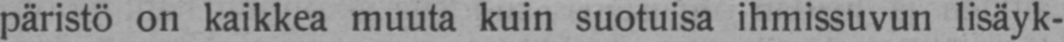päristö on kaikkea muuta kuin suotuisa ihmissuvun lisäyk-
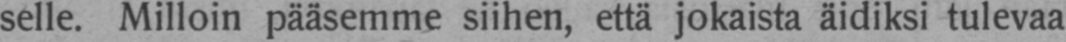selle. Milloin pääsemme siihen, että jokaista äidiksi tulevaa
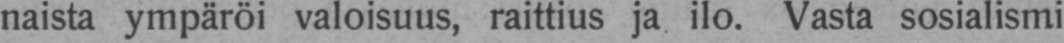naista ympäröi valoisuus, raittius ja ilo. Vasta sosialismi
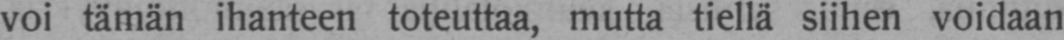voi tämän ihanteen toteuttaa, mutta tiellä siihen voidaan
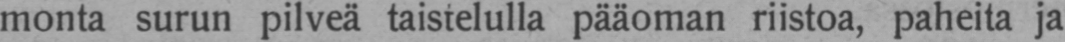monta surun pilveä taistelulla pääoman riistoa, paheita ja
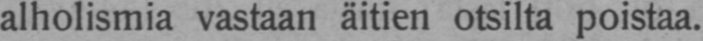alholismia vastaan äitien otsilta poistaa.
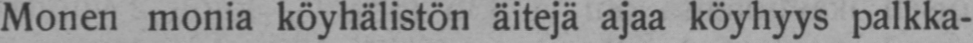Monen monia köyhälistön äitejä ajaa köyhyys palkka-
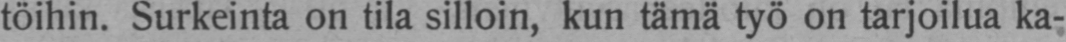töihin. Surkeinta on tila silloin, kun tämä työ on tarjoilua ka-
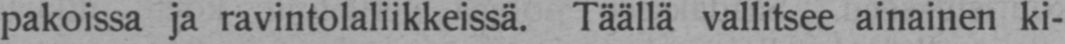pakoissa ja ravintolaliikkeissä. Täällä vallitsee ainainen ki-
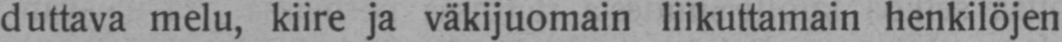duttava melu, kiire ja väkijuomain liikuttamain henkilöjen
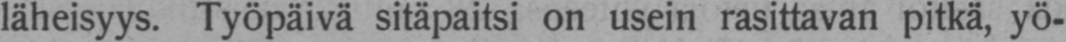läheisyys. Työpäivä sitäpaitsi on usein rasittavan pitkä, yö-
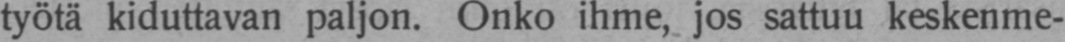työtä kiduttavan paljon. Onko ihme, jos sattuu keskenme-
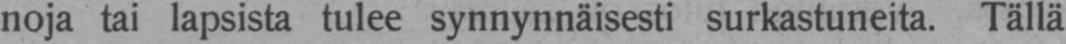noja tai lapsista tulee synnynnäisesti surkastuneita. Tällä
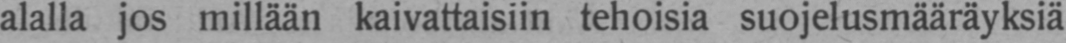alalla jos millään kaivattaisiin tehoisia suojelusmääräyksiä
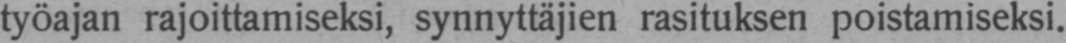työajan rajoittamiseksi, synnyttäjien rasituksen poistamiseksi,
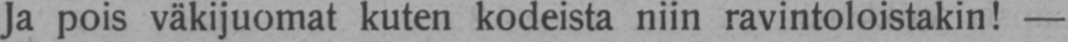ja pois väkijuomat kuten kodeista niin ravintoloistakin! —
